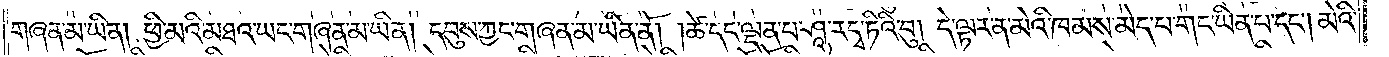གཞན་མ་ཡིན། ཕྱི་མའི་མཐའ་ཡང་གཞན་མ་ཡིན། དབུས་ཀྱང་གཞན་མ་ཡིན་ནོ། །ཚེ་དང་ལྡན་པ་ཤཱ་རདྭ་ཏིའི་བུ། དེ་ལྟར་ན་མེའི་ཁམས་མེད་པ་གང་ཡིན་པ་དང༌། མེའི་
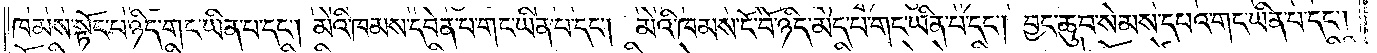ཁམས་སྟོང་པ་ཉིད་གང་ཡིན་པ་དང༌། མེའི་ཁམས་དབེན་པ་གང་ཡིན་པ་དང༌། མེའི་ཁམས་ངོ་བོ་ཉིད་མེད་པ་གང་ཡིན་པ་དང༌། བྱང་ཆུབ་སེམས་དཔའ་གང་ཡིན་པ་དང༌།
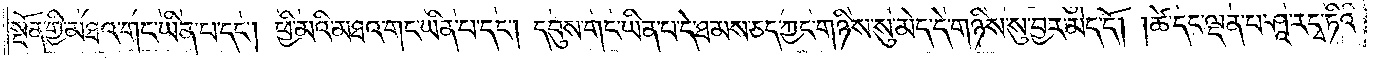སྔོན་གྱི་མཐའ་གང་ཡིན་པ་དང༌། ཕྱི་མའི་མཐའ་གང་ཡིན་པ་དང༌། དབུས་གང་ཡིན་པ་དེ་ཐམས་ཅད་ཀྱང་གཉིས་སུ་མེད་དེ་གཉིས་སུ་བྱར་མེད་དོ། །ཚེ་དང་ལྡན་པ་ཤཱ་རདྭ་ཏིའི་
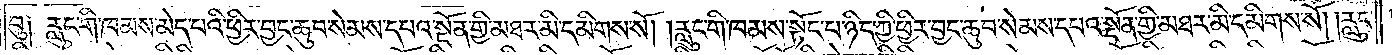བུ། རླུང་གི་ཁམས་མེད་པའི་ཕྱིར་བྱང་ཆུབ་སེམས་དཔའ་སྔོན་གྱི་མཐར་མི་དམིགས་སོ། །རླུང་གི་ཁམས་སྟོང་པ་ཉིད་ཀྱི་ཕྱིར་བྱང་ཆུབ་སེམས་དཔའ་སྔོན་གྱི་མཐར་མི་དམིགས་སོ། །རླུང་
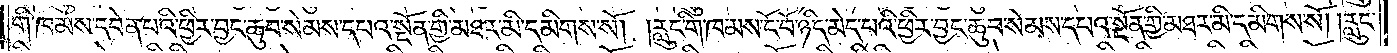གི་ཁམས་དབེན་པའི་ཕྱིར་བྱང་ཆུབ་སེམས་དཔའ་སྔོན་གྱི་མཐར་མི་དམིགས་སོ། །རླུང་གི་ཁམས་ངོ་བོ་ཉིད་མེད་པའི་ཕྱིར་བྱང་ཆུབ་སེམས་དཔའ་སྔོན་གྱི་མཐར་མི་དམིགས་སོ། །རླུང་
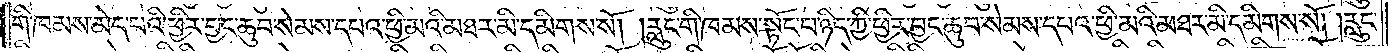གི་ཁམས་མེད་པའི་ཕྱིར་བྱང་ཆུབ་སེམས་དཔའ་ཕྱི་མའི་མཐར་མི་དམིགས་སོ། །རླུང་གི་ཁམས་སྟོང་པ་ཉིད་ཀྱི་ཕྱིར་བྱང་ཆུབ་སེམས་དཔའ་ཕྱི་མའི་མཐར་མི་དམིགས་སོ། །རླུང་
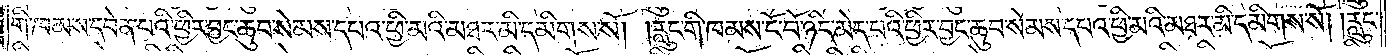གི་ཁམས་དབེན་པའི་ཕྱིར་བྱང་ཆུབ་སེམས་དཔའ་ཕྱི་མའི་མཐར་མི་དམིགས་སོ། །རླུང་གི་ཁམས་ངོ་བོ་ཉིད་མེད་པའི་ཕྱིར་བྱང་ཆུབ་སེམས་དཔའ་ཕྱི་མའི་མཐར་མི་དམིགས་སོ། །རླུང་
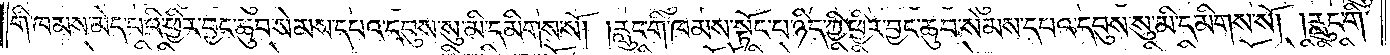གི་ཁམས་མེད་པའི་ཕྱིར་བྱང་ཆུབ་སེམས་དཔའ་དབུས་སུ་མི་དམིགས་སོ། །རླུང་གི་ཁམས་སྟོང་པ་ཉིད་ཀྱི་ཕྱིར་བྱང་ཆུབ་སེམས་དཔའ་དབུས་སུ་མི་དམིགས་སོ། །རླུང་གི་
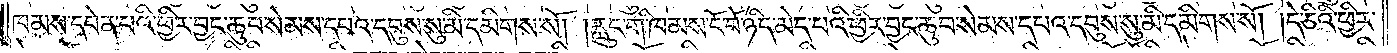ཁམས་དབེན་པའི་ཕྱིར་བྱང་ཆུབ་སེམས་དཔའ་དབུས་སུ་མི་དམིགས་སོ། །རླུང་གི་ཁམས་ངོ་བོ་ཉིད་མེད་པའི་ཕྱིར་བྱང་ཆུབ་སེམས་དཔའ་དབུས་སུ་མི་དམིགས་སོ། །དེ་ཅིའི་ཕྱིར་
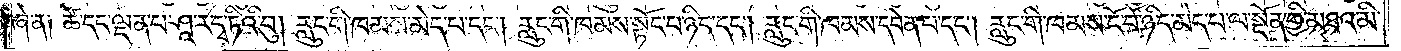ཞེ་ན། ཚེ་དང་ལྡན་པ་ཤཱ་རདྭ་ཏིའི་བུ། རླུང་གི་ཁམས་མེད་པ་དང༌། རླུང་གི་ཁམས་སྟོང་པ་ཉིད་དང༌། རླུང་གི་ཁམས་དབེན་པ་དང༌། རླུང་གི་ཁམས་ངོ་བོ་ཉིད་མེད་པ་ལ་སྔོན་གྱི་མཐའ་མི་
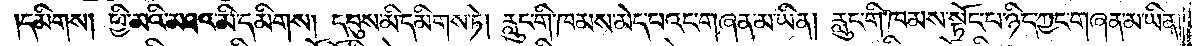དམིགས། ཕྱི་མའི་མཐའ་མི་དམིགས། དབུས་མི་དམིགས་ཏེ། རླུང་གི་ཁམས་མེད་པའང་གཞན་མ་ཡིན། རླུང་གི་ཁམས་སྟོང་པ་ཉིད་ཀྱང་གཞན་མ་ཡིན།
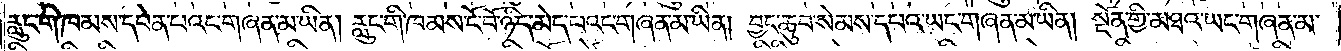རླུང་གི་ཁམས་དབེན་པའང་གཞན་མ་ཡིན། རླུང་གི་ཁམས་ངོ་བོ་ཉིད་མེད་པའང་གཞན་མ་ཡིན། བྱང་ཆུབ་སེམས་དཔའ་ཡང་གཞན་མ་ཡིན། སྔོན་གྱི་མཐའ་ཡང་གཞན་མ་
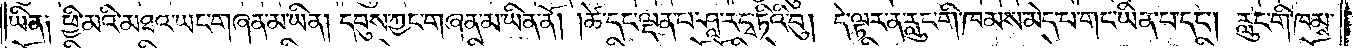ཡིན༑ ཕྱི་མའི་མཐའ་ཡང་གཞན་མ་ཡིན། དབུས་ཀྱང་གཞན་མ་ཡིན་ནོ། །ཚེ་དང་ལྡན་པ་ཤཱ་རདྭ་ཏིའི་བུ། དེ་ལྟར་ན་རླུང་གི་ཁམས་མེད་པ་གང་ཡིན་པ་དང༌། རླུང་གི་ཁམས་
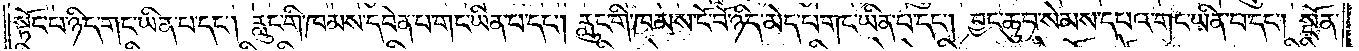སྟོང་པ་ཉིད་གང་ཡིན་པ་དང༌། རླུང་གི་ཁམས་དབེན་པ་གང་ཡིན་པ་དང༌། རླུང་གི་ཁམས་ངོ་བོ་ཉིད་མེད་པ་གང་ཡིན་པ་དང༌། བྱང་ཆུབ་སེམས་དཔའ་གང་ཡིན་པ་དང༌། སྔོན་
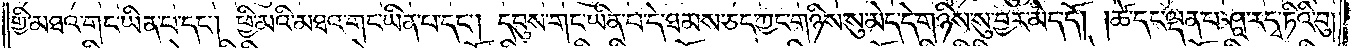གྱི་མཐའ་གང་ཡིན་པ་དང༌། ཕྱི་མའི་མཐའ་གང་ཡིན་པ་དང༌། དབུས་གང་ཡིན་པ་དེ་ཐམས་ཅད་ཀྱང་གཉིས་སུ་མེད་དེ་གཉིས་སུ་བྱར་མེད་དོ། །ཚེ་དང་ལྡན་པ་ཤཱ་རདྭ་ཏིའི་བུ།
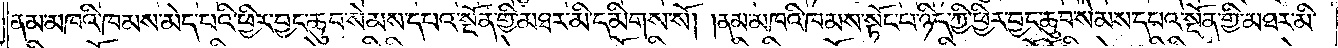ནམ་མཁའི་ཁམས་མེད་པའི་ཕྱིར་བྱང་ཆུབ་སེམས་དཔའ་སྔོན་གྱི་མཐར་མི་དམིགས་སོ། །ནམ་མཁའི་ཁམས་སྟོང་པ་ཉིད་ཀྱི་ཕྱིར་བྱང་ཆུབ་སེམས་དཔའ་སྔོན་གྱི་མཐར་མི་
